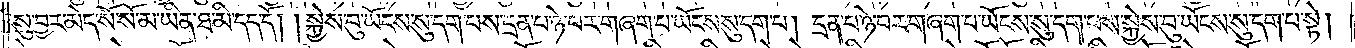སུ་བྱར་མེད་སོ་སོ་མ་ཡིན་ཐ་མི་དད་དོ། །སྐྱེས་བུ་ཡོངས་སུ་དག་པས་དྲན་པ་ཉེ་བར་གཞག་པ་ཡོངས་སུ་དག་པ། དྲན་པ་ཉེ་བར་བཞག་པ་ཡོངས་སུ་དག་པས་སྐྱེས་བུ་ཡོངས་སུ་དག་པ་སྟེ།
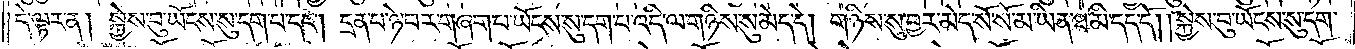དེ་ལྟར་ན། སྐྱེས་བུ་ཡོངས་སུ་དག་པ་དང༌། དྲན་པ་ཉེ་བར་གཞག་པ་ཡོངས་སུ་དག་པ་འདི་ལ་གཉིས་སུ་མེད་དེ། གཉིས་སུ་བྱར་མེད་སོ་སོ་མ་ཡིན་ཐ་མི་དད་དོ། །སྐྱེས་བུ་ཡོངས་སུ་དག་
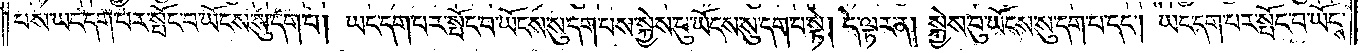པས་ཡང་དག་པར་སྤོང་བ་ཡོངས་སུ་དག་པ། ཡང་དག་པར་སྤོང་བ་ཡོངས་སུ་དག་པས་སྐྱེས་བུ་ཡོངས་སུ་དག་པ་སྟེ། དེ་ལྟར་ན། སྐྱེས་བུ་ཡོངས་སུ་དག་པ་དང༌། ཡང་དག་པར་སྤོང་བ་ཡོངས་
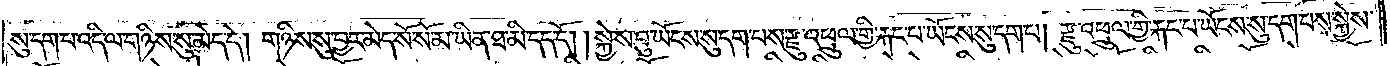སུ་དག་པ་འདི་ལ་གཉིས་སུ་མེད་དེ། གཉིས་སུ་བྱར་མེད་སོ་སོ་མ་ཡིན་ཐ་མི་དད་དོ། །སྐྱེས་བུ་ཡོངས་སུ་དག་པས་རྫུ་འཕྲུལ་གྱི་རྐང་པ་ཡོངས་སུ་དག་པ། རྫུ་འཕྲུལ་གྱི་རྐང་པ་ཡོངས་སུ་དག་པས་སྐྱེས་
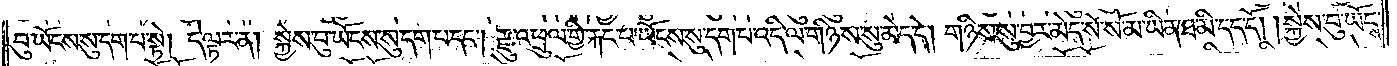བུ་ཡོངས་སུ་དག་པ་སྟེ། དེ་ལྟར་ན། སྐྱེས་བུ་ཡོངས་སུ་དག་པ་དང༌། རྫུ་འཕྲུལ་གྱི་རྐང་པ་ཡོངས་སུ་དག་པ་འདི་ལ་གཉིས་སུ་མེད་དེ། གཉིས་སུ་བྱར་མེད་སོ་སོ་མ་ཡིན་ཐ་མི་དད་དོ། །སྐྱེས་བུ་ཡོངས་
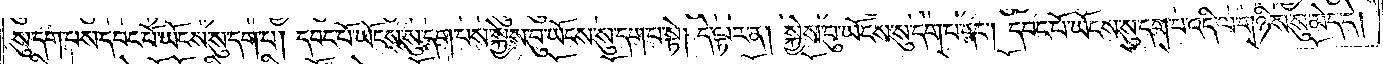སུ་དག་པས་དབང་པོ་ཡོངས་སུ་དག་པ། དབང་པོ་ཡོངས་སུ་དག་པས་སྐྱེས་བུ་ཡོངས་སུ་དག་པ་སྟེ། དེ་ལྟར་ན། སྐྱེས་བུ་ཡོངས་སུ་དག་པ་དང༌། དབང་པོ་ཡོངས་སུ་དག་པ་འདི་ལ་གཉིས་སུ་མེད་དེ།
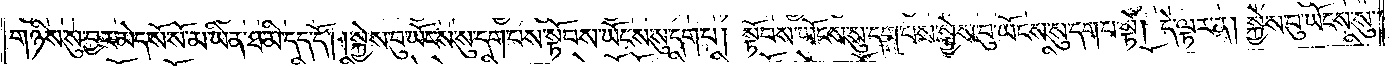གཉིས་སུ་བྱར་མེད་སོ་སོ་མ་ཡིན་ཐ་མི་དད་དོ། །སྐྱེས་བུ་ཡོངས་སུ་དག་པས་སྟོབས་ཡོངས་སུ་དག་པ། སྟོབས་ཡོངས་སུ་དག་པས་སྐྱེས་བུ་ཡོངས་སུ་དག་པ་སྟེ། དེ་ལྟར་ན། སྐྱེས་བུ་ཡོངས་སུ་
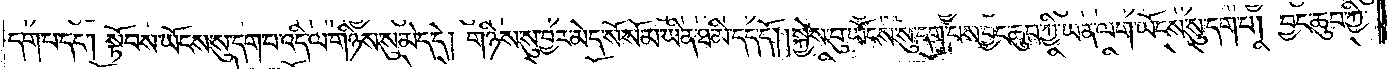དག་པ་དང༌། སྟོབས་ཡོངས་སུ་དག་པ་འདི་ལ་གཉིས་སུ་མེད་དེ། གཉིས་སུ་བྱར་མེད་སོ་སོ་མ་ཡིན་ཐ་མི་དད་དོ། །སྐྱེས་བུ་ཡོངས་སུ་དག་པས་བྱང་ཆུབ་ཀྱི་ཡན་ལག་ཡོངས་སུ་དག་པ། བྱང་ཆུབ་ཀྱི་
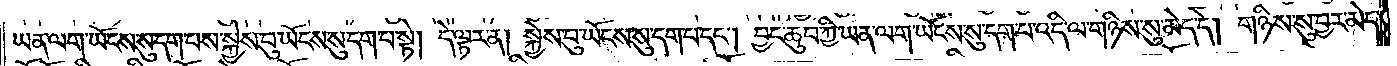ཡན་ལག་ཡོངས་སུ་དག་པས་སྐྱེས་བུ་ཡོངས་སུ་དག་པ་སྟེ། དེ་ལྟར་ན། སྐྱེས་བུ་ཡོངས་སུ་དག་པ་དང༌། བྱང་ཆུབ་ཀྱི་ཡན་ལག་ཡོངས་སུ་དག་པ་འདི་ལ་གཉིས་སུ་མེད་དེ། གཉིས་སུ་བྱར་མེད་
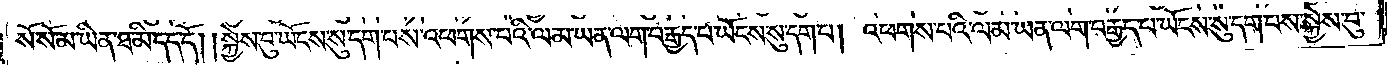སོ་སོ་མ་ཡིན་ཐ་མི་དད་དོ། །སྐྱེས་བུ་ཡོངས་སུ་དག་པས་འཕགས་པའི་ལམ་ཡན་ལག་བརྒྱད་པ་ཡོངས་སུ་དག་པ། འཕགས་པའི་ལམ་ཡན་ལག་བརྒྱད་པ་ཡོངས་སུ་དག་པས་སྐྱེས་བུ་
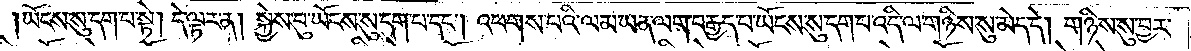ཡོངས་སུ་དག་པ་སྟེ། དེ་ལྟར་ན། སྐྱེས་བུ་ཡོངས་སུ་དག་པ་དང༌། འཕགས་པའི་ལམ་ཡན་ལག་བརྒྱད་པ་ཡོངས་སུ་དག་པ་འདི་ལ་གཉིས་སུ་མེད་དེ། གཉིས་སུ་བྱར་
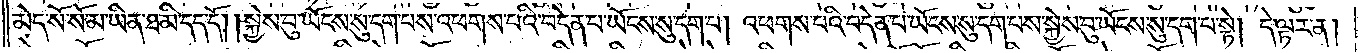མེད་སོ་སོ་མ་ཡིན་ཐ་མི་དད་དོ། །སྐྱེས་བུ་ཡོངས་སུ་དག་པས་འཕགས་པའི་བདེན་པ་ཡོངས་སུ་དག་པ། འཕགས་པའི་བདེན་པ་ཡོངས་སུ་དག་པས་སྐྱེས་བུ་ཡོངས་སུ་དག་པ་སྟེ། དེ་ལྟར་ན།
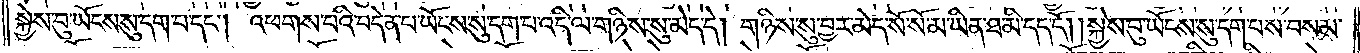སྐྱེས་བུ་ཡོངས་སུ་དག་པ་དང༌། འཕགས་པའི་བདེན་པ་ཡོངས་སུ་དག་པ་འདི་ལ་གཉིས་སུ་མེད་དེ། གཉིས་སུ་བྱར་མེད་སོ་སོ་མ་ཡིན་ཐ་མི་དད་དོ། །སྐྱེས་བུ་ཡོངས་སུ་དག་པས་བསམ་
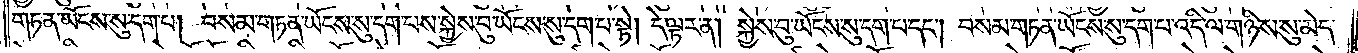གཏན་ཡོངས་སུ་དག་པ། བསམ་གཏན་ཡོངས་སུ་དག་པས་སྐྱེས་བུ་ཡོངས་སུ་དག་པ་སྟེ། དེ་ལྟར་ན། སྐྱེས་བུ་ཡོངས་སུ་དག་པ་དང༌། བསམ་གཏན་ཡོངས་སུ་དག་པ་འདི་ལ་གཉིས་སུ་མེད་
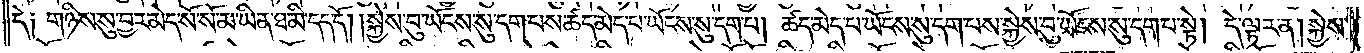དེ༑ གཉིས་སུ་བྱར་མེད་སོ་སོ་མ་ཡིན་ཐ་མི་དད་དོ། །སྐྱེས་བུ་ཡོངས་སུ་དག་པས་ཚད་མེད་པ་ཡོངས་སུ་དག་པ། ཚད་མེད་པ་ཡོངས་སུ་དག་པས་སྐྱེས་བུ་ཡོངས་སུ་དག་པ་སྟེ། དེ་ལྟར་ན། སྐྱེས་
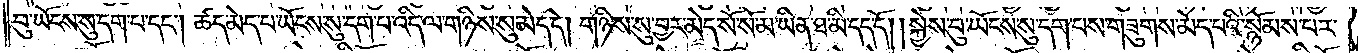བུ་ཡོངས་སུ་དག་པ་དང༌། ཚད་མེད་པ་ཡོངས་སུ་དག་པ་འདི་ལ་གཉིས་སུ་མེད་དེ། གཉིས་སུ་བྱར་མེད་སོ་སོ་མ་ཡིན་ཐ་མི་དད་དོ། །སྐྱེས་བུ་ཡོངས་སུ་དག་པས་གཟུགས་མེད་པའི་སྙོམས་པར་
